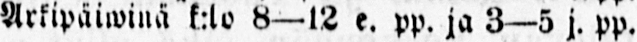Arkipäiwinä k:lo 8—12 e. pp. ja 3—5 j. pp.
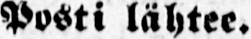Posti lähtee.
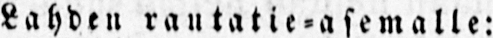Lahden rautatie-asemalle:
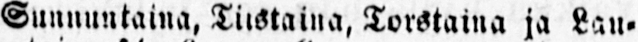Sunnuntaina, Tiistaina, Torstaina ja Lau-
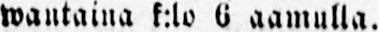wautaina k:lo 6 aamulla.
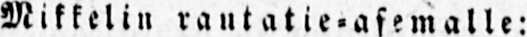Mikkelin rautatie-asemalle:
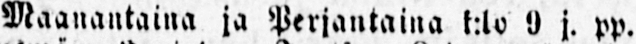Maanantaina ja Perjantaina k:lo 9 j. pp.
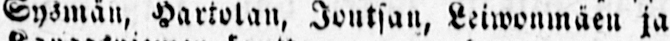Sysmän, Hartolan, Joutsan, Leiwonmäen ja
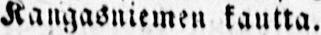Kangasniemen kautta.
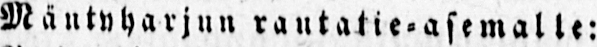Mäntyharjun rautatie- asemalle:
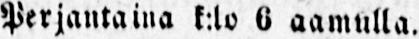Perjantaina k:lo 6 aamulla.
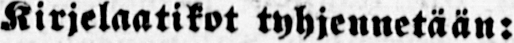Kirjelaatikot tyhjennetään:
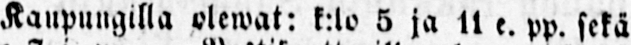Kaupungilla olewat: k:lo 5 ja 11 e. pp. sekä
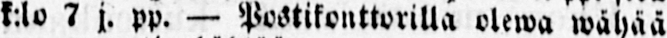k:lo 7 j. pp. — olewa wähää
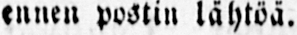ennen postin lähtöä.
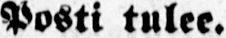posti tulee.
